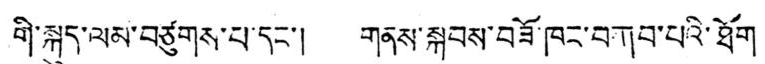གི་སྐུད་ལམ་བཙུགས་པ་དང་། གནས་སྐབས་བཟོ་ཁང་བཀབ་པའི་ཐོག
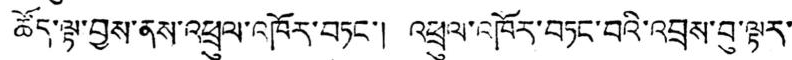ཚོད་ལྟ་བྱས་ནས་འཕྲུལ་འཁོར་བཏང་། འཕྲུལ་འཁོར་བཏང་བའི་འབྲས་བུ་ལྟར་
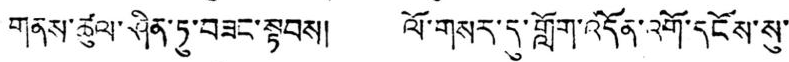གནས་ཚུལ་ཤིན་ཏུ་བཟང་སྟབས། ལོ་གསར་དུ་གློག་འདོན་འགོ་དངོས་སུ་
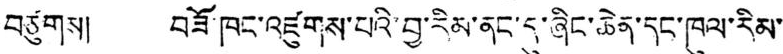བཙུགས། བཟོ་ཁང་འཛུགས་པའི་བྱ་རིམ་ནང་དུ་ཞིང་ཆེན་དང་ཁུལ་རིམ་
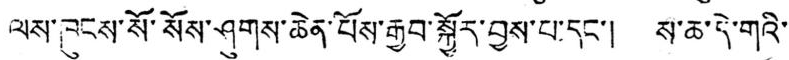ལས་ཁུངས་སོ་སོས་ཤུགས་ཆེན་པོས་རྒྱབ་སྐྱོར་བྱས་པ་དང་། ས་ཆ་དེ་གའི་
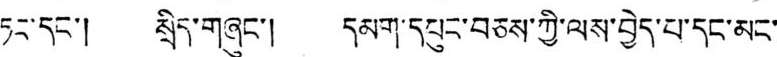ཏང་དང་། སྲིད་གཞུང་། དམག་དཔུང་བཅས་ཀྱི་ལས་བྱེད་པ་དང་མང་
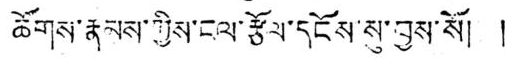ཚོགས་རྣམས་ཀྱིས་ངལ་རྩོལ་དངོས་སུ་བྱས་སོ། །
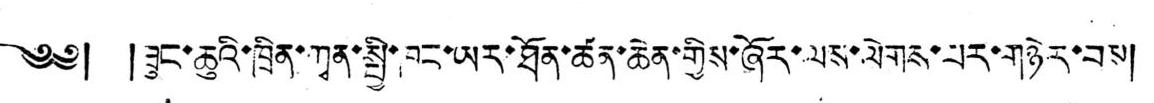༄༅། །ཟུང་ཆུའི་ཁྲིན་ཀྭན་སྤྱི་ཁང་ཡར་ཐོན་ཚན་ཆེན་གྱིས་ཞོར་ལས་ལེགས་པར་གཉེར་བས།
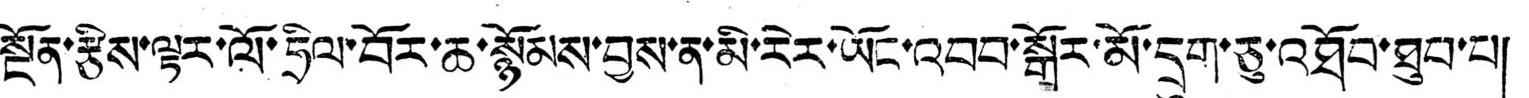སྔོན་རྩིས་ལྟར་ལོ་ཧྲིལ་བོར་ཆ་སྙོམས་བྱས་ན་མི་རེར་ཡོང་འབབ་སྒོར་མོ་དྲུག་ཅུ་འཐོབ་ཐུབ་པ།
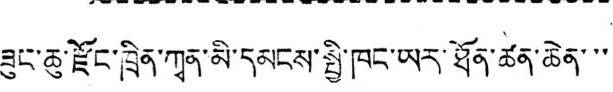ཟུང་ཆུ་རྫོང་ཁྲིན་ཀྭན་མི་དམངས་སྤྱི་ཁང་ཡར་ཐོན་ཚན་ཆེན་་་
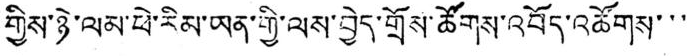གྱིས་ཉེ་ལམ་ཕེ་རིམ་ཡན་གྱི་ལས་བྱེད་གྲོས་ཚོགས་འབོད་འཚོགས་་་
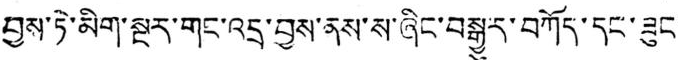བྱས་ཏེ་མིག་སྔར་གང་འདྲ་བྱས་ནས་ས་ཞིང་བསྒྱུར་བཀོད་དང་ཟུང་
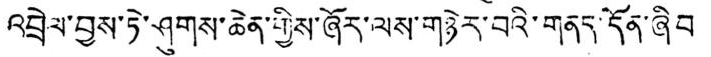འབྲེལ་བྱས་ཏེ་ཤུགས་ཆེན་གྱིས་ཞོར་ལས་གཉེར་བའི་གནད་དོན་ཞིབ
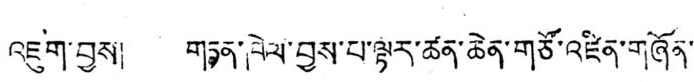འཇུག་བྱས། གཏན་ཁེལ་བྱས་པ་ལྟར་ཚན་ཆེན་གཙོ་འཛིན་གཞོན་
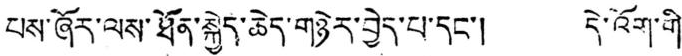པས་ཞོར་ལས་ཐོན་སྐྱེད་ཆེད་གཉེར་བྱེད་པ་དང་། དེ་འོག་གི་
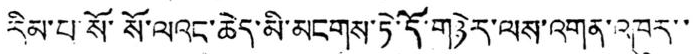རིམ་པ་སོ་སོ་ལའང་ཆེད་མི་མངགས་ཏེ་དོ་གཉེར་ལས་འགན་འཁུར་་
